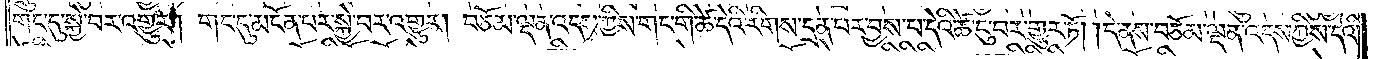གང་དུ་སྐྱེ་བར་འགྱུར། གང་དུ་མངོན་པར་སྐྱེ་བར་འགྱུར། བཅོམ་ལྡན་འདས་ཀྱིས་གང་གི་ཚེ་དེའི་རིགས་དྲན་པར་བྱས་པ་དེའི་ཚེ་ངུ་བར་གྱུར་ཏོ། །དེ་ནས་བཅོམ་ལྡན་འདས་ཀྱིས་དེའི་
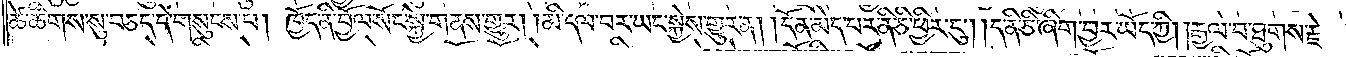ཚེ་ཚིགས་སུ་བཅད་དེ་གསུངས་པ། ཁྱོད་ནི་བྱོལ་སོང་སྐྱེ་གནས་གྱུར། །མི་དལ་བར་ཡང་སྐྱེས་གྱུར་ན། །དོན་མེད་པར་ནི་ཅི་ཕྱིར་ངུ༌། །ད་ནི་ཅི་ཞིག་བྱར་ཡོད་ཀྱི། །རྒྱལ་བ་ཐུགས་རྗེ་
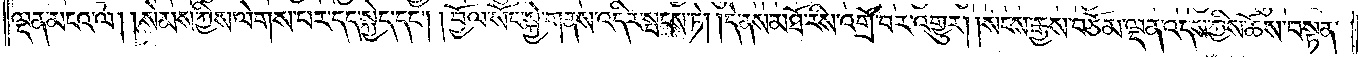ལྡན་མངའ་ལ། །སེམས་ཀྱིས་ལེགས་པར་དད་སྐྱེད་དང༌། །བྱོལ་སོང་སྐྱེ་གནས་འདིར་སྤངས་ཏེ། །དེ་ནས་མཐོ་རིས་འགྲོ་བར་འགྱུར། །སངས་རྒྱས་བཅོམ་ལྡན་འདས་ཀྱིས་ཆོས་བསྟན་
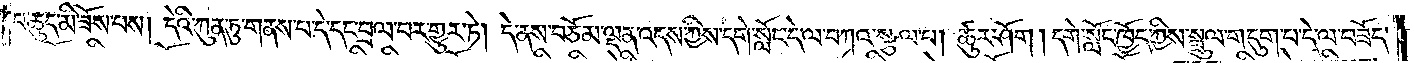པ་ཆུད་མི་ཟོས་པས། དེའི་ཀུན་ཏུ་གནས་པ་དེ་དང་བྲལ་བར་གྱུར་ཏེ། དེ་ནས་བཅོམ་ལྡན་འདས་ཀྱིས་དགེ་སློང་དེ་ལ་བཀའ་སྩལ་པ། ཚུར་ཤོག །དགེ་སློང་ཁྱོད་ཀྱིས་སྦྲུལ་གདུག་པ་དེ་ལ་བཟོད་
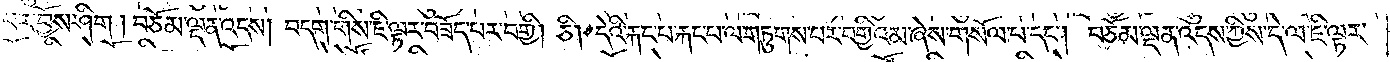པར་བྱོས་ཤིག །བཅོམ་ལྡན་འདས། བདག་གིས་ཇི་ལྟར་བཟོད་པར་བགྱི། ཅི། དེའི་རྐང་པ་རྐང་པ་ལ་གཏུགས་པར་བགྱིའམ་ཞེས་གསོལ་པ་དང༌། བཅོམ་ལྡན་འདས་ཀྱིས་དེ་ལ་ཇི་ལྟར་
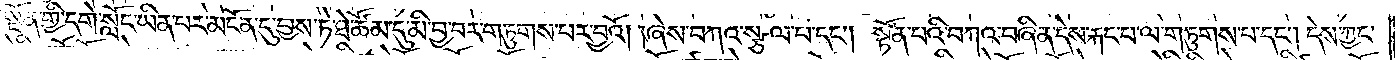སྔོན་གྱི་དགེ་སློང་ཡིན་པར་མངོན་དུ་བྱས་ཏེ་ཐེ་ཚོམ་དུ་མི་བྱ་བར་གཏུགས་པར་བྱའོ། །ཞེས་བཀའ་སྩལ་པ་དང༌། སྟོན་པའི་བཀའ་བཞིན་དེས་རྐང་པ་ལ་གཏུགས་པ་དང༌། དེས་ཀྱང་
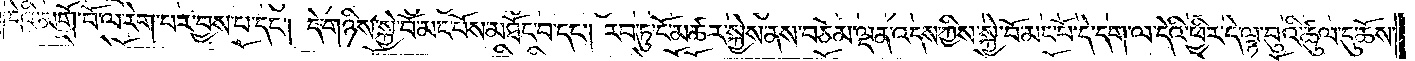དེའི་མགོ་བོ་ལ་རེག་པར་བྱས་པ་དང༌། དེ་གཉིས་སྐྱེ་བོ་མང་པོས་མཐོང་བ་དང༌། རབ་ཏུ་ངོ་མཚར་སྐྱེས་ནས་བཅོམ་ལྡན་འདས་ཀྱིས་སྐྱེ་བོ་མང་པོ་དེ་དག་ལ་དེའི་ཕྱིར་དེ་ལྟ་བུའི་ཚུལ་དུ་ཆོས་
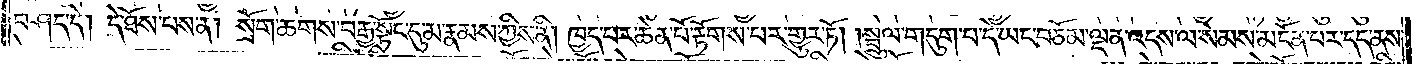བཤད་དེ། དེ་ཐོས་པས་ན། སྲོག་ཆགས་བརྒྱ་སྟོང་དུ་མ་རྣམས་ཀྱིས་ནི། ཁྱད་པར་ཆེན་པོ་རྟོགས་པར་གྱུར་ཏོ། །སྦྲུལ་གདུག་པ་དེ་ཡང་བཅོམ་ལྡན་འདས་ལ་སེམས་མངོན་པར་དད་ནས།
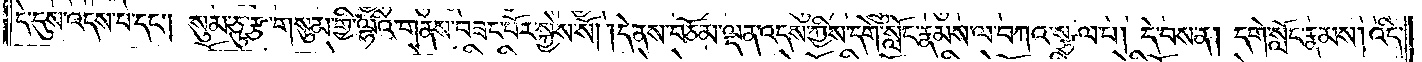དེ་དུས་འདས་པ་དང༌། སུམ་ཅུ་རྩ་གསུམ་གྱི་ལྷའི་གནས་བཟང་པོར་སྐྱེས་སོ། །དེ་ནས་བཅོམ་ལྡན་འདས་ཀྱིས་དགེ་སློང་རྣམས་ལ་བཀའ་སྩལ་པ། དེ་བས་ན། དགེ་སློང་རྣམས། འདི་
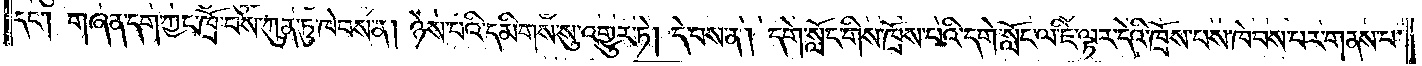དང༌། གཞན་དག་ཀྱང་ཁྲོ་བས་ཀུན་ཏུ་ཁེབས་ན། ཉེས་པའི་དམིགས་སུ་འགྱུར་ཏེ། དེ་བས་ན། དགེ་སློང་གིས་ཁྲོས་པའི་དགེ་སློང་ལ་ཇི་ལྟར་དེའི་ཁྲོས་པས་ཁེབས་པར་གནས་པ་
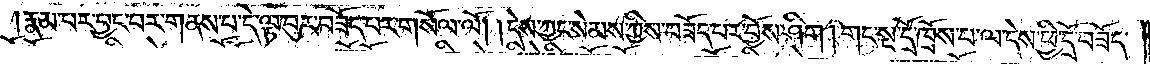རྣམ་པར་བྱང་བར་གནས་པ་དེ་ལྟ་བུར་བཟོད་པར་གསོལ་ལོ། །དེས་ཀྱང་སེམས་ཀྱིས་བཟོད་པར་བྱོས་ཤིག། །གང་སྔ་དྲོ་ཁྲོས་པ་ལ་དེས་ཕྱི་དྲོ་བཟོད་
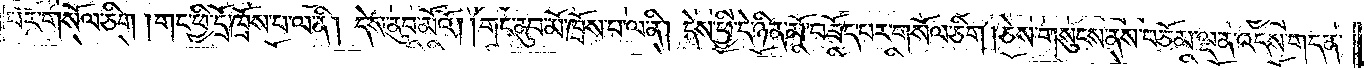པར་གསོལ་ཅིག །གང་ཕྱི་དྲོ་ཁྲོས་པ་ལ་ནི། དེས་ནུབ་མོའོ། །གང་ནུབ་མོ་ཁྲོས་པ་ལ་ནི། དེས་ཕྱི་དེ་ཉིན་མོ་བཟོད་པར་གསོལ་ཅིག། ཅེས་གསུངས་ནས་བཅོམ་ལྡན་འདས་གདན་
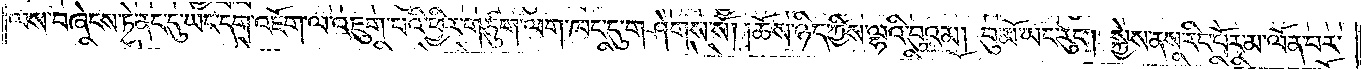ལས་བཞེངས་ཏེ་ནང་དུ་ཡང་དག་འཇོག་ལ་འཇུག་པའི་ཕྱིར་གཙུག་ལག་ཁང་དུ་གཤེགས་སོ། །ཆོས་ཉིད་ཀྱིས་ལྷའི་བུའམ། བུ་མོ་ཡང་རུང༌། སྐྱེས་ནས་རིང་པོར་མ་ལོན་པར་
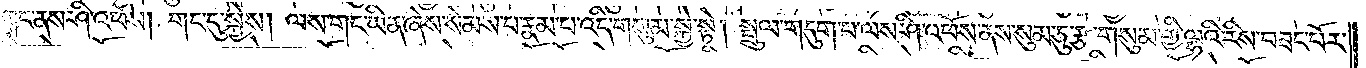གང་ནས་ཤི་འཕོས། གང་དུ་སྐྱེས། ལས་གང་ཡིན་ཞེས་སེམས་པ་རྣམ་པ་འདི་གསུམ་སྐྱེ་སྟེ། སྦྲུལ་གདུག་པ་ལས་ཤི་འཕོས་ནས་སུམ་ཅུ་རྩ་གསུམ་གྱི་ལྷའི་རིས་བཟང་པོར་
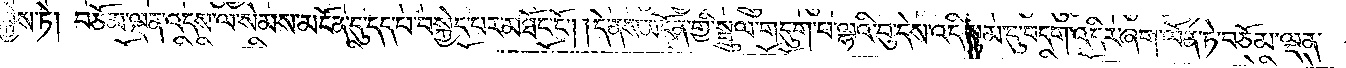སྐྱེས་ཏེ། བཅོམ་ལྡན་འདས་ལ་སེམས་མངོན་དུ་དད་པ་བསྐྱེད་པར་མཐོང་ངོ༌། །དེ་ནས་མངོན་གྱི་སྦྲུལ་གདུག་པ་ལྷའི་བུ་དེས་འདི་སྙམ་དུ་བདག་འདིར་ཞག་ལོན་ཏེ་བཅོམ་ལྡན་
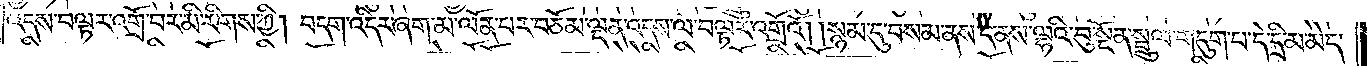འདས་བལྟར་འགྲོ་བར་མི་རིགས་ཀྱི། བདག་འདིར་ཞག་མ་ལོན་པར་བཅོམ་ལྡན་འདས་ལ་བལྟར་འགྲོའོ། །སྙམ་དུ་བསམ་ནས་དེ་ནས་ལྷའི་བུ་སྔོན་སྦྲུལ་གདུག་པ་དེ་དྲི་མ་མེད་
